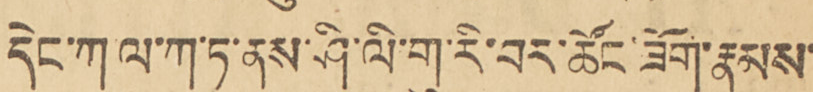དེང་ཀལ་ཀ་ཏ་ནས་ཤི་ལི་གུ་རི་བར་ཚོང་ཟོག་རྣམས་
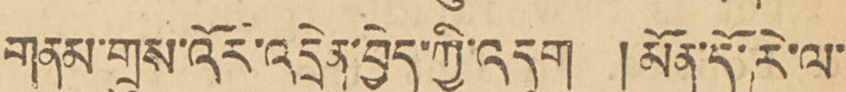གནམ་གྲུས་འོང་འདྲེན་བྱེད་ཀྱི་འདུག །མོན་དོ་རེ་ལ་
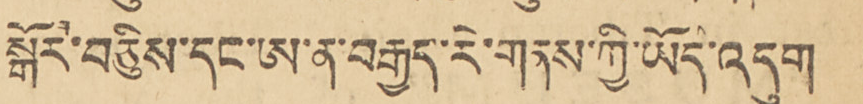སྒོར་བཅིུས་དང་ཨ་ན་བརྒྱད་རེ་གནམ་ཀྱི་ཡོད་འདུག །
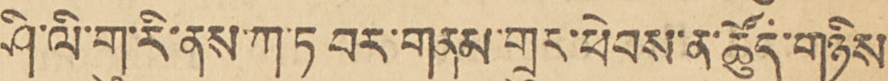ཤི་ལི་གུ་རི་ནས་ཀ་ཏ་བར་གནམ་གྲུར་ཕེབས་ན་ཚུད་གཉིས་
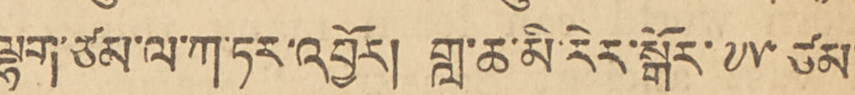ལྷག་ཙམ་ལ་ཀ་ཏར་འབྱོར། གླ་ཆ་མི་རེར་སྒོར་ ༧༥ ཙམ་
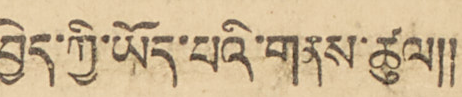བྱེད་ཀྱི་ཡོད་པའི་གནས་ཚུལ་།།
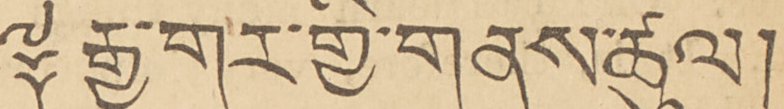༈ རྒྱ་གར་གྱི་གནས་ཚུལ།
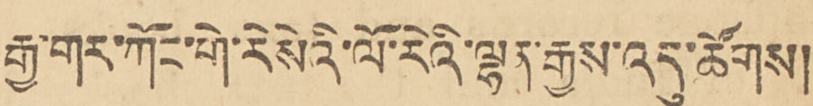རྒྱ་གར་ཀོང་གེ་རེསེའི་ལོ་རེའི་ལྷག་རྒྱས་འདུ་ཚོགས།
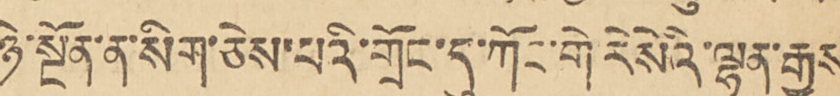ཉེ་སྔོན་ན་སིག་ཅེས་པའི་གྲོང་དུ་ཀོང་གེ་རེསེའི་ལྷན་རྒྱས་
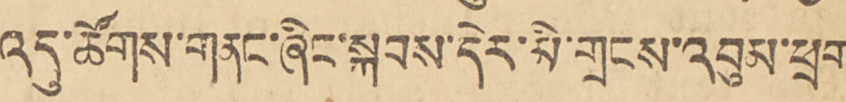འདུ་ཚོགས་གནང་ཞིང་སྐབས་དེར་མི་གྲངས་འབུམ་ཕྲག་
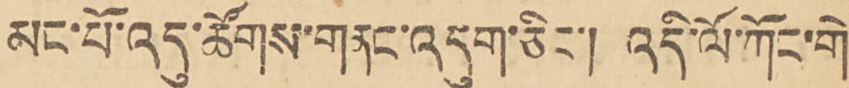མང་པོ་འདུ་ཚོགས་གནང་འདུག་ཅིང་། འདི་ལོ་ཀོང་གེ་
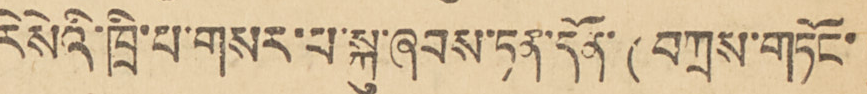རེསེའི་ཁྲི་པ་གསར་པ་སྐུ་ཞབས་ཏན་དོན་ (བཀྲས་གཏོང་)
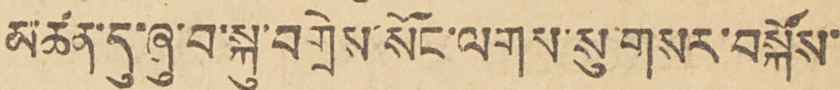མཚན་དུ་ཞུ་བ་སྐུ་བགྲེས་སོང་ལགས་སུ་གསར་བསྐོས་
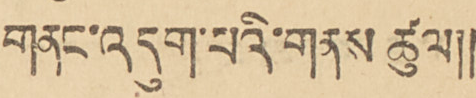གནང་འདུག་པའི་གནས་ཚུལ།།
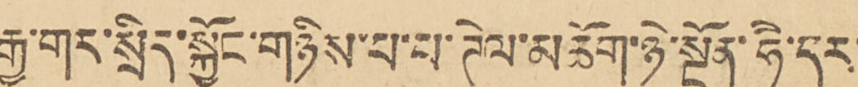རྒྱ་གར་སྲིད་སྐྱོང་གཉིས་པ་པ་ཊེལ་མཆོག་ཉེ་སྔོན་ཧཻ་དར་
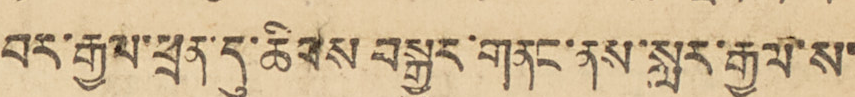བར་རྒྱན་ཕྲན་དུ་ཆིབས་བསྒྱུར་གནང་ནས་སླར་རྒྱལ་ས་
